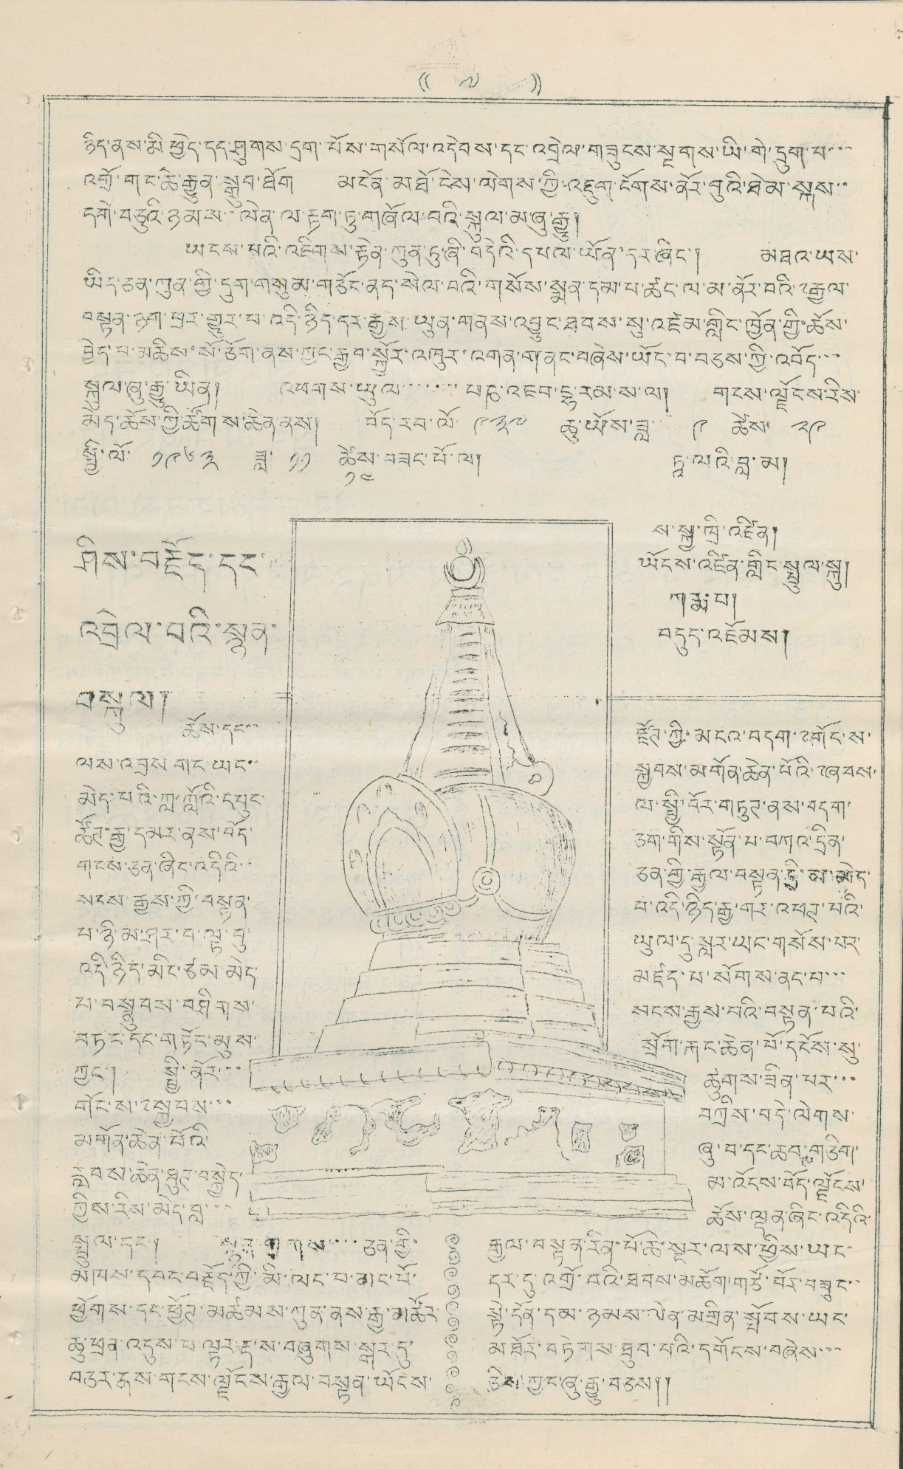(( ༧ )）
ཉིད་ནས་མི བྱེད་དད་ཤུགས་དྲག་པོས་གསོལ་འདེབས་དང་འབྲེལ་གཟུངས་སྔགས་ཡི་གེ་དྲུག་པ་་་
འགྲོ་གང་ཆེ་རྒྱུན་སྒྲུབ་ཐོག མངོན་མཐོ་ངེས་ལེགས་ཀྱི་འཇུག་ངོགས་ནོར་བུའི་ཐེམ་སྐུས་་
དགེ་བཅུའི་ཉམས་ལེན་ལ་རྟག་ཏུ་གཞོལ་བའི་སྐལ་མཞུ་རྒྱུ།
ཡངས་པའི་འཇིགས་རྟེན་ཀུན་ཏུ་ཞི་བདེའི་དཔལ་ཡོན་དར་ཞིང་། མཐའ་ཡས་
ཡིད་ཅན་ཀུན་གྱི་དུག་གསུམ་གཅོང་ནད་སེལ་བའི་གསོས་སྨན་དམ་པ་ཚང་ལ་མ་ནོར་བའི་༸རྒྱལ་
བསྟན་ཉག་ཕྲར་གྱུར་བ་འདི་ཉིད་དར་རྒྱས་ཡུན་གནས་འབྱུང་ཐབས་སུ་འཛམ་གླིང་ཁྱོན་གྱི་ཆོས་
བྱེད་པ་མཆིས་སོ་ཅོག་ནས་ཀྱང་རྒྱབ་སྐྱོར་འཁུར་འགན་གནང་བཞེས་ཡོད་བ་བཅས་ཀྱི་འབོད་་་་
སྐུལ་ཞུ་རྒྱུ་ཡིན། འཕགས་ཡུལ་་་་་་་་བཎ་འཇབ་བྷ་རམ་ས་ལ། གངས་ལྗོངས་རིས་
མེད་ཆོས་ཀྱི་ཚོགས་ཆེན་ནས། བོད་རབ་ལོ་ ༩༢༧ ཆུ་ཡོས་ཟླ་ ༩ ཚེས་ ༢༩
སྤྱི་ལོ་ ༡༩༦༣ ཟླ་ ༡༡ ཚེས་ ༡༤ བཟང་པོ་ལ། ཏཱ་ལའི་བླ་མ།
ས་སྐྱ་ཁྲི་འཛིན།
ཡོངས་འཛིན་གླིང་སྤྲུལ་སྐུ་
ཀརྨ་པ།
བདུད་འཇོམས།
ཤིས་བརྗོད་དང་།
འབྲེལ་བའི་སྙན་
བསྐུལ།།
ཚོས་དང་།
ལས་འབྲས་གང་ཡང་་
མེད་པའི་ཀླ་ཀློའི་དཔུང་
ཚོཊ་རྒྱ་དམར་ནས་བོད་
གངས་ཅན་ཞིང་འདིའི་་
སངས་རྒྱས་ཀྱི་བསྟན་
པ་ཉི་མ་ཤར་བ་ལྟ་བུ་
འདི་ཉིད་མིང་ཙམ་མེད་
པ་བསྣྲུབས་བཤིགས་
བཏང་དང་གཏོང་མུས་
ཀྱང་། སྤྱི་ནོར་་
གོང་ས་༸སྐྱབས་་་
མགོན་ཆེན་པོའི་
རླབས་ཆེན་ཐུཊ་བསྐྱེད།
ཀྱིས་རིས་མེད་བླ་་་
སྤྲོལ་དང་། སྙན གྲགས་་་ཅན་གྱི་
མཁས་དབང་བརྗོད་ཀྱི་མི་ལང་བ་མང་པོ་
ཕྱོགས་དང་ཕྱོཊ་མཚམས་ཀུན་ནས་རྒྱ་མཚོར་
ཆུ་ཕྲན་འདུས་པ་ལྟར་རྡ་ས་བཞུགས་སྒར་དུ་
བཅར་དས་གངས་ལྗོངས་རྒྱལ་བསྟན་ཡོངས་
རྫོཊ་ཀྱི་མངའ་བདག་༸གོང་ས་
སྐྱབས་མགོན་ཆེན་པོའི་ཞཞབས་
ལ་སྤྱི་བོར་གཏུཊ་ནས་བདག་
ཅག་གིས་སྟོན་པ་བཀའ་དྲིན་
ཅན་གྱི་རྒྱལ་བསྟན་དི་མ་མེད་
བ་འདི་ཉིད་རྒྱ་གར་འཕཊ་པའི་
ཡུལ་དུ་སླར་ཡང་གསོས་པར་
མཛད་པ་སོགས་ནང་པ་་་
སངས་རྒྱས་པའི་བསྟན་པའི་
སྲོག་རྐང་ཆེན་པོ་དངོས་སུ་
ཚུགས་ཟིན་པར་་་
བཀྲིས་བདེ་ལེགས་
ཞུ་བ་དང་ཆབྶ་གཅིག་
མ་འོངས་བོད་ལྗོངས་
ཆོས་ལྡན་ཞིང་འདིའི་
རྒྱལ་བསྟན་རིན་པོ་ཆེ་སྔར་ལས་ཕྱིས་ཡང་
དར་དུ་འགྲོ་བའི་ཐབས་མཆོག་གཙོ་བོར་བཟུང་་
སྟེ་དོན་དམ་ཉམས་ལེན་མགྲིན་སྤོབས་ཡང་
མཐོར་བཏེགས་ཐུབ་པའི་དགོངས་བཞེས་་་
ཅིས་ཀྱང་ཞུ་རྒྱུ་བཅས།།
